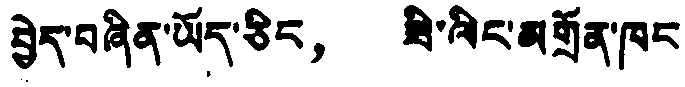བྱེད་བཞིན་ཡོད་ཅིང， ཟི་ལིང་མགྲོན་ཁང
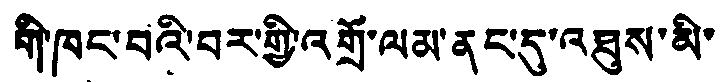གི་ཁང་བའི་བར་གྱི་འགྲོ་ལམ་ནང་དུ་འཐུས་མི་
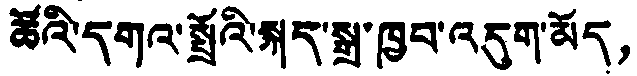ཚོའི་དགའ་སྤྲོའི་སྐད་སྒྲ་ཁྱབ་འདུག་མོད，
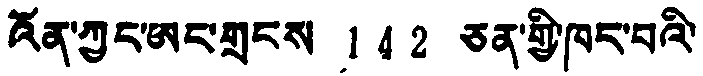འོན་ཀྱང་ཨང་གྲངས 142 ཅན་གྱི་ཁང་བའི་
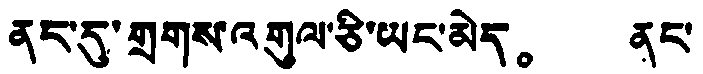ནང་དུ་གྲགས་འགུལ་ཅི་ཡང་མེད。 ནང་
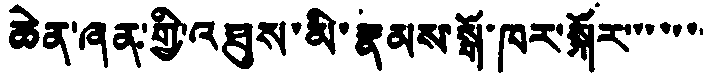ཆེན་ཞན་གྱི་འཐུས་མི་རྣམས་སྒོ་ཁར་སྐོར་་་་་་་
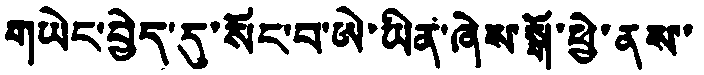གཡེང་བྱེད་དུ་སོང་བ་ཨེ་ཡིན་ཞེས་སྒོ་ཕྱེ་ནས་
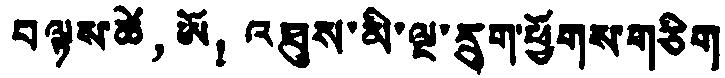བལྟས་ཚེ， ཡོ！ འཐུས་མི་ལྔ་རྲུག་ཕྱོགས་གཅིག
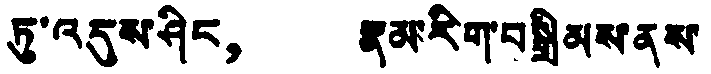ཏུ་འདུས་ཤིང， རྣམ་རིག་བསྒྲིམས་ནས་
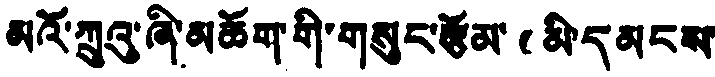མའོ་ཀྲུའུ་ཞི་མཆོག་གི་གསུང་རྩོམ་《མི་དམངས་
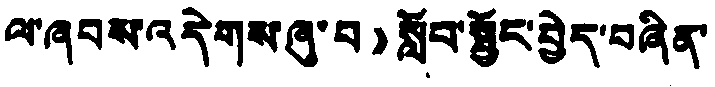ལ་ཞབས་འདེགས་ཞུ་བ》སློབ་སྦྱོང་བྱེད་བཞིན་
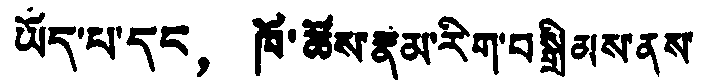ཡོད་པ་དང， ཁོ་ཚོས་རྣམ་རིག་བསྒྲིམས་ནས་
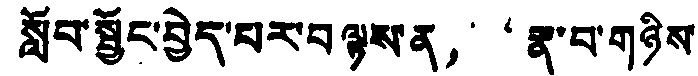སློབ་སྦྱོང་བྱེད་པར་བལྟས་ན，“རྣ་བ་གཉིས་
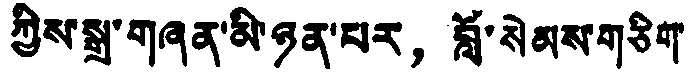ཀྱིས་སྒྲ་གཞན་མི་ཉན་པར， བློ་སེམས་གཅིག
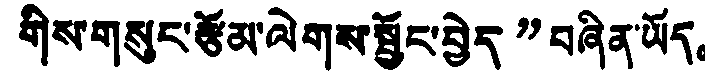གིས་གསུང་རྩོམ་ལེགས་སྦྱོང་བྱེད”བཞིན་ཡོད。
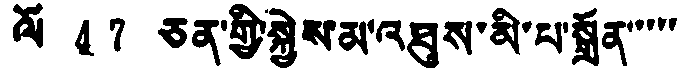ལོ 47 ཅན་གྱི་སྐྱེས་མ་འཐུས་མི་པ་སྒྲོན་་་་་
